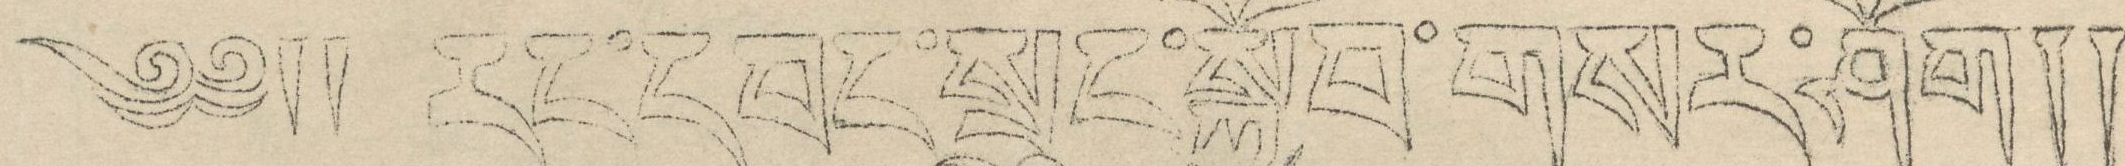༄༅།། རང་དབང་སྲུང་སྐྱོབ་གསར་ཤོག༎
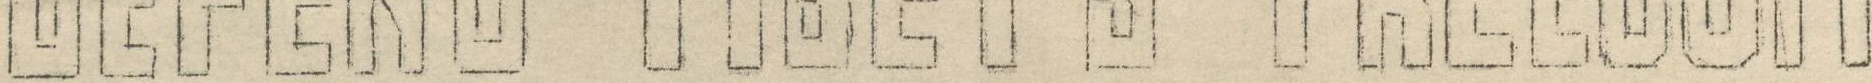DEFEND TIBET'S FREEDOM
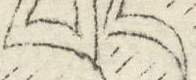བོད་
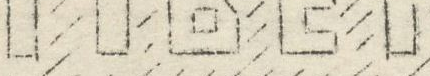TIBET
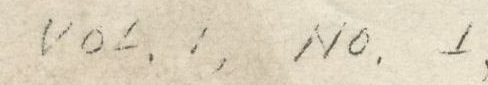Vol, 1, No, 1,
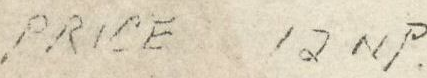PRICE 12 NP.
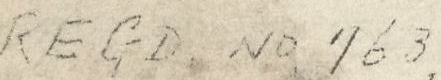REGD, NO, 763,
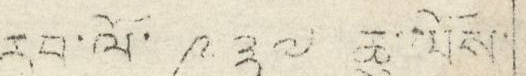རབ་ལོ་ ༩༣༧ ཆུ་ཡོས་
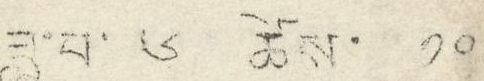ཟླ་བ་ ༦ ཚེས་ ༡༠
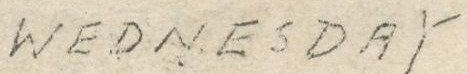WEDNESDAY
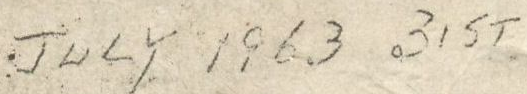JULY 1963, 31ST
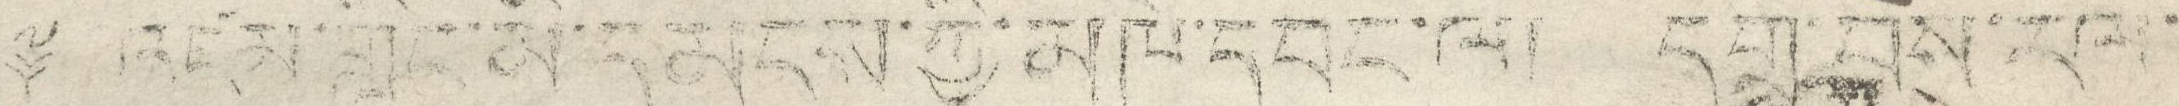༈ འཛམ་གླིང་མི་དམངས་ཀྱི་མཁེ་དབང་ལ། དགྲ་བོས་རལ་
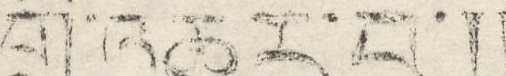གྲི་འཆར་པ་༎
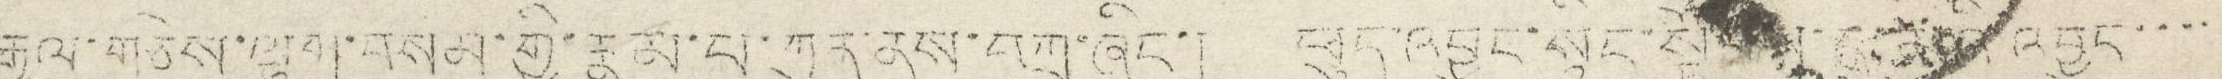རྒྱལ་གཅེས་ལྷག་བསམ་གྱི་རྣམ་པ་ཀུན་ནས་བཀྲ་ཞིང་། ཕུད་འབྱུང་སྙིང་སྟོབས་དུ་མའི་འབྱུང་་་་
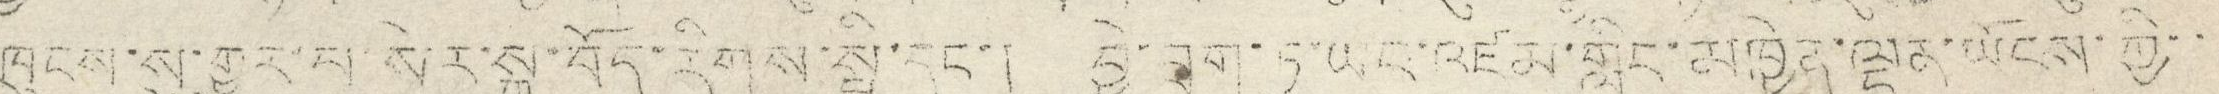ཁུངས་སུ་གྱུར་པ་སེར་སྐྱ་བོད་རིགས་སྤྱི་དང་། བྱེ་བྲག་ཏུ་ཡང་འཛམ་གླིང་མཁྱེན་ལྡན་ཡོངས་ཀྱི་་
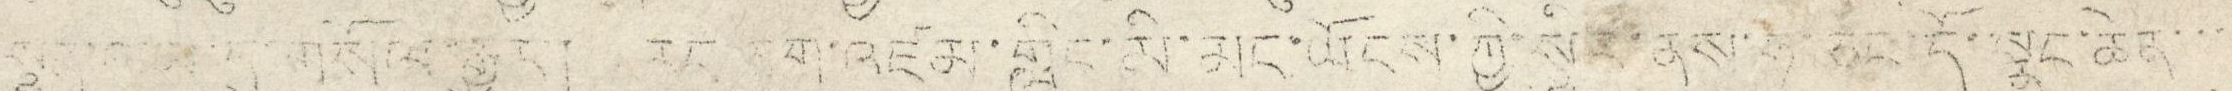སྙན་ལམ་དུ་གསོལ་རྒྱུར་། རང་ཅག་འཛམ་གླིང་མི་མང་ཡོངས་ཀྱི་སྙིང་ནས་ཧ་ཅང་དོ་སྣང་ཆེན་་་
